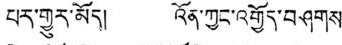པར་གྱུར་མོད། འོན་ཀྱང་འགྱོད་བཤགས་
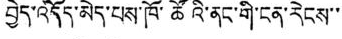བྱེད་འདོད་མེད་པས་ཁོ་ཚོའི་ནང་གི་ངན་རེངས་་་
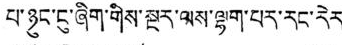པ་ཉུང་ངུ་ཞིག་གིས་སྔར་ལས་ལྷག་པར་རང་རེར་
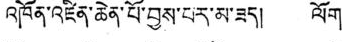འཁོན་འཛིན་ཆེན་པོ་བྱས་པར་མ་ཟད། ལོག་
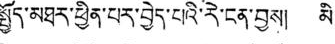སྤྱོད་མཐར་ཕྱིན་པར་བྱེད་པའི་རེ་ངན་བྱས། མི་
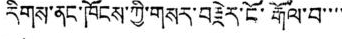རིགས་ནང་ཁོངས་ཀྱི་གསར་བརྗེར་ངོ་རྒོལ་བ་་་་་
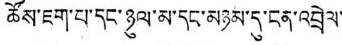ཚོས་ཇག་པ་དང་ཉུལ་མ་དང་མཉམ་དུ་ངན་འབྲེལ་་
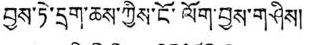བྱས་ཏེ་དྲག་ཆས་ཀྱིས་ངོ་ལོག་བྱས་གཤིས།
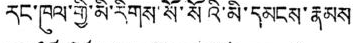རང་ཁུལ་གྱི་མི་རིགས་སོ་སོའི་མི་དམངས་རྣམས
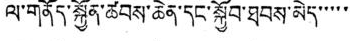ལ་གནོད་སྐྱོན་ཚབས་ཆེན་དང་སྐྱོབ་ཐབས་མེད་་་་་
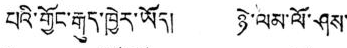པའི་གྱོང་རྒུད་ཁྱེར་ཡོད། ཉེ་ལམ་ལོ་ཤས་
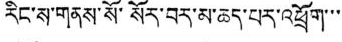རིང་ས་གནས་སོ་སོར་བར་མ་ཆད་པར་འཕྲོག་་་་
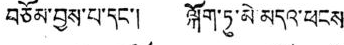བཅོམ་བྱས་པ་དང་། ལྐོག་ཏུ་མདའ་ཕངས་
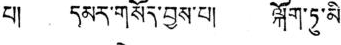པ། དམར་གསོད་བྱས་པ། ལྐོག་ཏུ་མི་
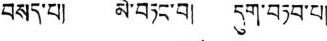བསད་པ། མེ་བཏང་བ། དུག་བཏབ་པ།
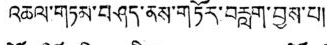འཆལ་གཏམ་བཤད་ནས་གཏོར་བརླག་བྱས་པ།
